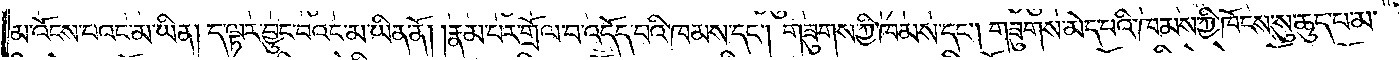མ་འོངས་པའང་མ་ཡིན། ད་ལྟར་བྱུང་བའང་མ་ཡིན་ནོ། །རྣམ་པར་གྲོལ་བ་འདོད་བའི་ཁམས་དང༌། གཟུགས་ཀྱི་ཁམས་དང༌། གཟུགས་མེད་པའི་ཁམས་ཀྱི་ཁོངས་སུ་ཆུད་པ་མ་
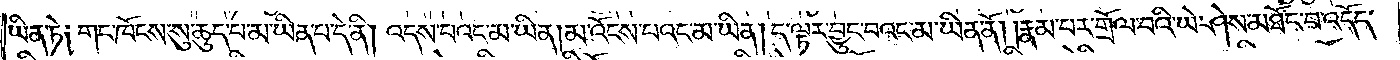ཡིན་ཏེ༑ གང་ཁོངས་སུ་ཆུད་པ་མ་ཡིན་པ་དེ་ནི། འདས་པའང་མ་ཡིན། མ་འོངས་པའང་མ་ཡིན། ད་ལྟར་བྱུང་བའང་མ་ཡིན་ནོ། །རྣམ་པར་གྲོལ་བའི་ཡེ་ཤེས་མཐོང་བ་འདོད་
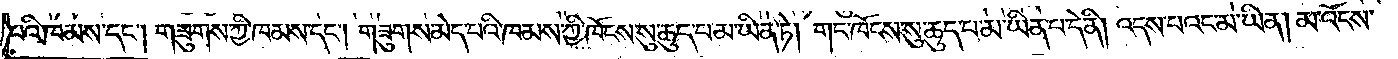པའི་ཁམས་དང༌། གཟུགས་ཀྱི་ཁམས་དང༌། གཟུགས་མེད་པའི་ཁམས་ཀྱི་ཁོངས་སུ་ཆུད་པ་མ་ཡིན་ཏེ། གང་ཁོངས་སུ་ཆུད་པ་མ་ཡིན་པ་དེ་ནི། འདས་པའང་མ་ཡིན། མ་འོངས་
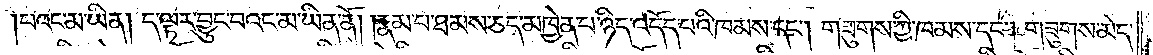པའང་མ་ཡིན། ད་ལྟར་བྱུང་བའང་མ་ཡིན་ནོ། །རྣམ་པ་ཐམས་ཅད་མཁྱེན་པ་ཉིད་འདོད་པའི་ཁམས་དང༌། གཟུགས་ཀྱི་ཁམས་དང༌། གཟུགས་མེད་
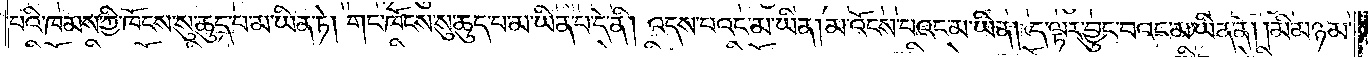པའི་ཁམས་ཀྱི་ཁོངས་སུ་ཆུད་པ་མ་ཡིན་ཏེ། གང་ཁོངས་སུ་ཆུད་པ་མ་ཡིན་པ་དེ་ནི། འདས་པའང་མ་ཡིན། མ་འོངས་པའང་མ་ཡིན། ད་ལྟར་བྱུང་བའང་མ་ཡིན་ནོ། །མི་མཉམ་
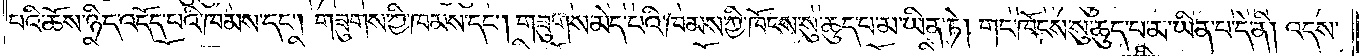པའི་ཆོས་ཉིད་འདོད་པའི་ཁམས་དང༌། གཟུགས་ཀྱི་ཁམས་དང༌། གཟུགས་མེད་པའི་ཁམས་ཀྱི་ཁོངས་སུ་ཆུད་པ་མ་ཡིན་ཏེ། གང་ཁོངས་སུ་ཆུད་པ་མ་ཡིན་པ་དེ་ནི། འདས་
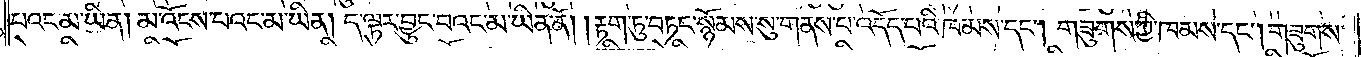པའང་མ་ཡིན། མ་འོངས་པའང་མ་ཡིན། ད་ལྟར་བྱུང་བའང་མ་ཡིན་ནོ། །རྟག་ཏུ་བཏང་སྙོམས་སུ་གནས་པ་འདོད་པའི་ཁམས་དང༌། གཟུགས་ཀྱི་ཁམས་དང༌། གཟུགས་
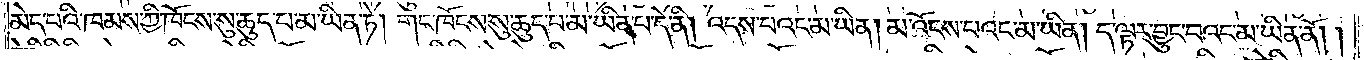མེད་པའི་ཁམས་ཀྱི་ཁོངས་སུ་ཆུད་པ་མ་ཡིན་ཏེ། གང་ཁོངས་སུ་ཆུད་པ་མ་ཡིན་པ་དེ་ནི། འདས་པའང་མ་ཡིན། མ་འོངས་པའང་མ་ཡིན། ད་ལྟར་བྱུང་བའང་མ་ཡིན་ནོ། །
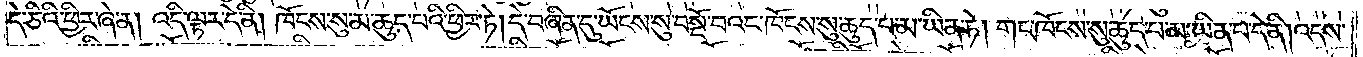དེ་ཅིའི་ཕྱིར་ཞེ་ན། འདི་ལྟར་དེ་ནི། ཁོངས་སུ་མ་ཆུད་པའི་ཕྱིར་ཏེ། དེ་བཞིན་དུ་ཡོངས་སུ་བསྔོ་བའང་ཁོངས་སུ་ཆུད་པ་མ་ཡིན་ཏེ། གང་ཁོངས་སུ་ཆུད་པ་མ་ཡིན་པ་དེ་ནི། འདས་
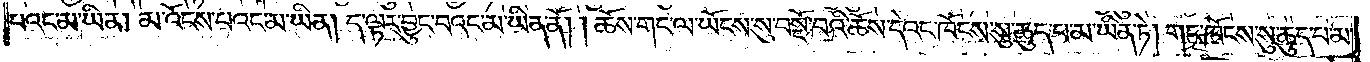པའང་མ་ཡིན། མ་འོངས་པའང་མ་ཡིན། ད་ལྟར་བྱུང་བའང་མ་ཡིན་ནོ། །ཆོས་གང་ལ་ཡོངས་སུ་བསྔོ་བའི་ཆོས་དེའང་ཁོངས་སུ་ཆུད་པ་མ་ཡིན་ཏེ། གང་ཁོངས་སུ་ཆུད་པ་མ་
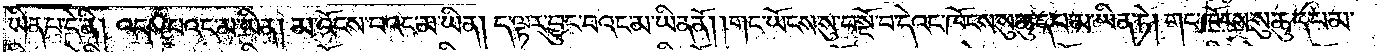ཡིན་པ་དེ་ནི། འདས་པའང་མ་ཡིན། མ་འོངས་པའང་མ་ཡིན། ད་ལྟར་བྱུང་བའང་མ་ཡིན་ནོ། །གང་ཡོངས་སུ་བསྔོ་བ་དེའང་ཁོངས་སུ་ཆུད་པ་མ་ཡིན་ཏེ། གང་ཁོངས་སུ་ཆུད་པ་མ་
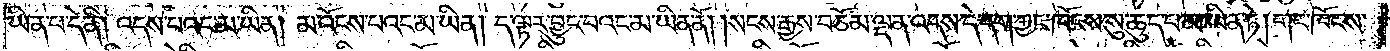ཡིན་པ་དེ་ནི། འདས་པའང་མ་ཡིན། མ་འོངས་པའང་མ་ཡིན། ད་ལྟར་བྱུང་བའང་མ་ཡིན་ནོ། །སངས་རྒྱས་བཅོམ་ལྡན་འདས་དེ་དག་ཀྱང་ཁོངས་སུ་ཆུད་པ་མ་ཡིན་ཏེ། གང་ཁོངས་
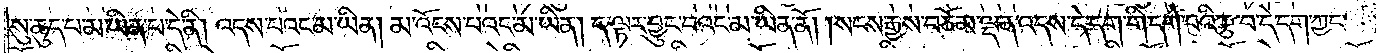སུ་ཆུད་པ་མ་ཡིན་པ་དེ་ནི། འདས་པའང་མ་ཡིན། མ་འོངས་པའང་མ་ཡིན། ད་ལྟར་བྱུང་བའང་མ་ཡིན་ནོ། །སངས་རྒྱས་བཅོམ་ལྡན་འདས་དེ་དག་གི་དགེ་བའི་རྩ་བ་དེ་དག་ཀྱང་
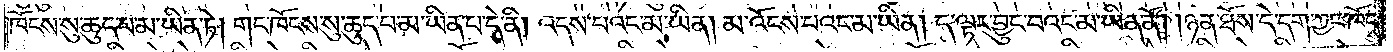ཁོངས་སུ་ཆུད་པ་མ་ཡིན་ཏེ། གང་ཁོངས་སུ་ཆུད་པ་མ་ཡིན་པ་དེ་ནི། འདས་པའང་མ་ཡིན། མ་འོངས་པའང་མ་ཡིན། ད་ལྟར་བྱུང་བའང་མ་ཡིན་ནོ། །ཉན་ཐོས་དེ་དག་ཀྱང་ཁོངས་
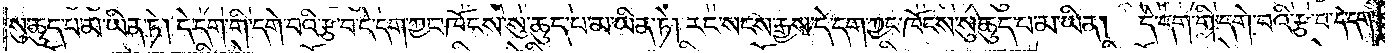སུ་ཆུད་པ་མ་ཡིན་ཏེ། དེ་དག་གི་དགེ་བའི་རྩ་བ་དེ་དག་ཀྱང་ཁོངས་སུ་ཆུད་པ་མ་ཡིན་ཏེ། རང་སངས་རྒྱས་དེ་དག་ཀྱང་ཁོངས་སུ་ཆུད་པ་མ་ཡིན། དེ་དག་གི་དགེ་བའི་རྩ་བ་དེ་དག་
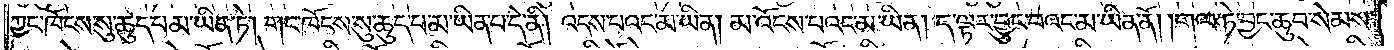ཀྱང་ཁོངས་སུ་ཆུད་པ་མ་ཡིན་ཏེ། གང་ཁོངས་སུ་ཆུད་པ་མ་ཡིན་པ་དེ་ནི། འདས་པའང་མ་ཡིན། མ་འོངས་པའང་མ་ཡིན། ད་ལྟར་བྱུང་བའང་མ་ཡིན་ནོ། །གལ་ཏེ་བྱང་ཆུབ་སེམས་
